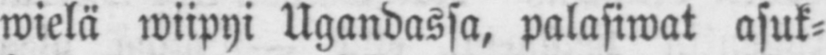wielä wiipyi Ugandassa, palasiwat asuk-
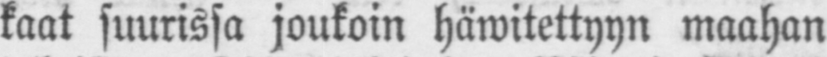kaat suurissa joukoin häwitettyyn maahan
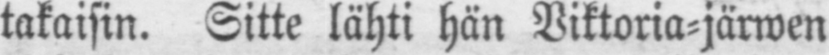takaisin. Sitte lähti hän Viktoria-järwen
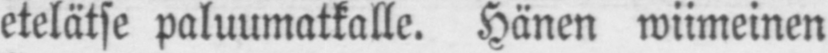etelätse paluumatkalle. Hänen wiimeinen
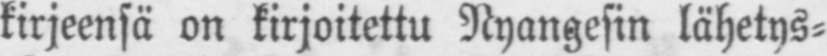kirjeensä on kirjoitettu Nyangesin lähetys-
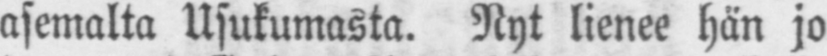asemalta Usukumasta. Nyt lienee hän jo
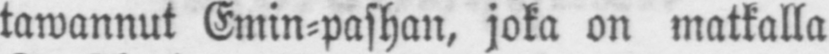tawannut Emin-pashan, joka on matkalla
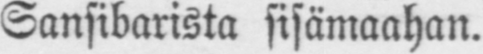Sansibarista sisämaahan.
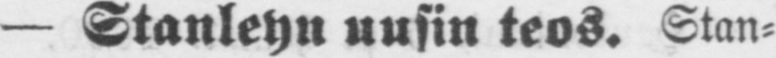— Stanleyn uusin teos. Stan-
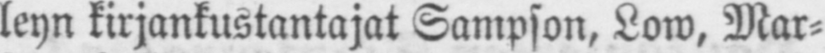leyn kirjankustantajat Sampson, Low, Mar-
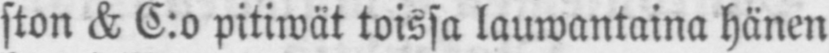ston L C:o pitiwät toissa lauwantaina hänen
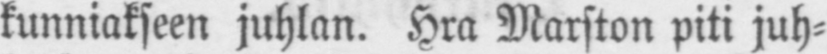kunniakseen juhlan. Hra Marston piti juh-
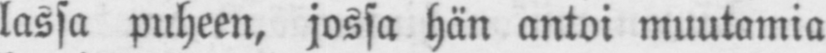lassa puheen, jossa hän antoi muutamia
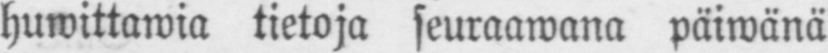huwittawia tietoja seuraawana päiwänä
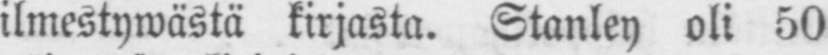ilmestywästä kirjasta. Stanley oli 50
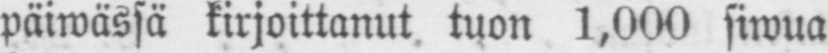päiwässä kirjoittanut tuon 1,000 siwua
